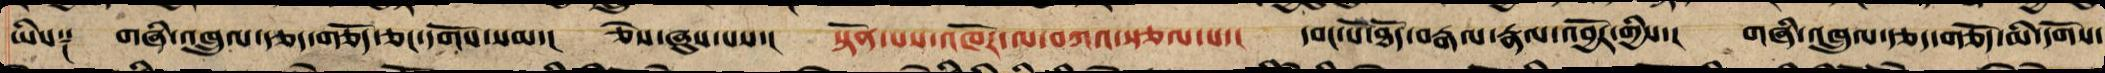ཡིས༑ གཞི་འཁྲུལ་རྩད་གཅོད་ཅང་དགོས་སམ་། ཅེས་ཞུས་པས་། སྟོན་པས་འཁོར་ལ་བཀའ་སྩལ་པ་། དབང་པོ་ཐོད་རྒལ་རྣལ་འབྱོར་གྱིས་། གཞི་འཁྲུལ་རྩད་གཅོད་མི་དགོས་
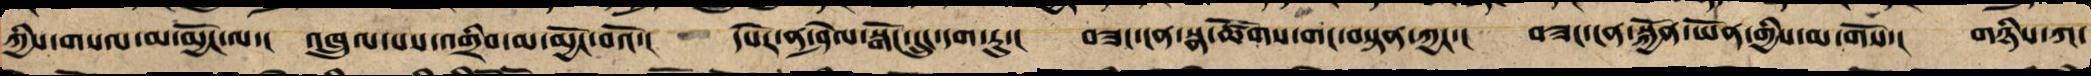ཀྱིས་གསལ་མ་མྱོང་ལ་། འཁྲུལ་པས་འགྲིབ་མ་མྱོང་བའོ་། དཔེར་ན་ཤེལ་སྒོང་དྲུང་དག་ཏུ་། བཟང་ངན་སྣ་ཚོགས་གང་བསྟན་ཀྱང་། བཟང་ངན་སྐྱོན་ཡོན་གྱིས་མ་གོས་། གཉིས་ཀ་
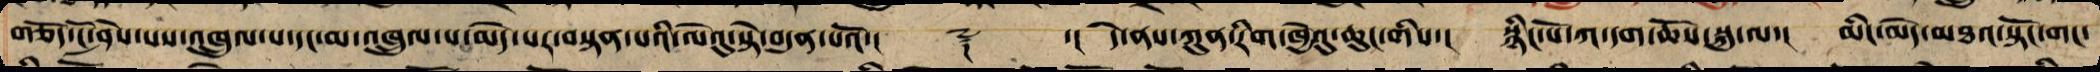གཅོད་ངོ་ཤེས་པས་འཁྲུལ་པ་དང་མ་འཁྲུལ་པ་མེད་པར་བསྟན་པའི་ལེའུ་སྟེ་བདུན་པའོ་།། ༈ ་།། དེ་ནས་ཀུན་རིག་ཁྱེའུ་ཆུང་གིས་། སྙིང་པོ་ཀ་དག་ཆོས་སྐུ་ལ་། མིང་མེད་མཐའ་སྟོང་གང་
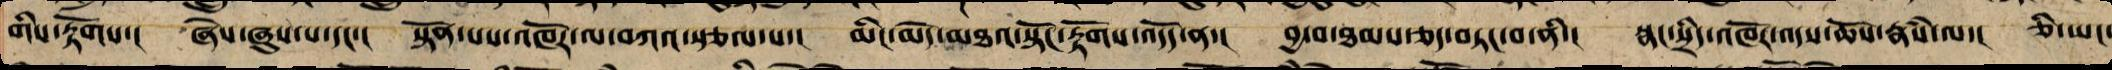གིས་རྟོགས་། ཞེས་ཞུས་པ་དང་་། སྟོན་པས་འཁོར་ལ་བཀའ་སྩལ་པ་། མིང་མེད་མཐའ་སྟོང་རྟོགས་འདོད་ན་། བྱ་བ་ཐམས་ཅད་བཏང་བ་ནི་། སྣང་སྲིད་འཁོར་འདས་ཆོས་རྣཾས་ལ་། ཅི་ཡང་
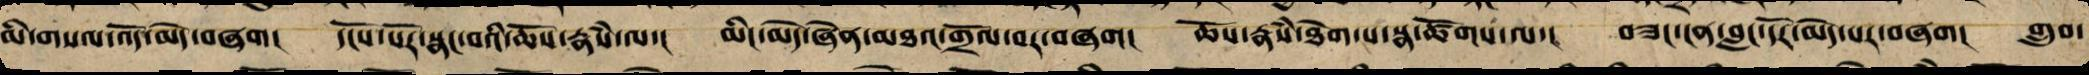མི་གསལ་འདོ་མེད་བཞག། དངོས་པོར་སྣང་བའི་ཆོས་རྣཾས་ལ་། མིང་མེད་ཞེན་མཐའ་གྲོལ་བར་བཞག། ཆོས་རྣཾས་ཐེག་པ་སྣ་ཚོགས་ལ་། བཟང་ངན་བླང་དོར་མེད་པར་བཞག། གྲུབ་
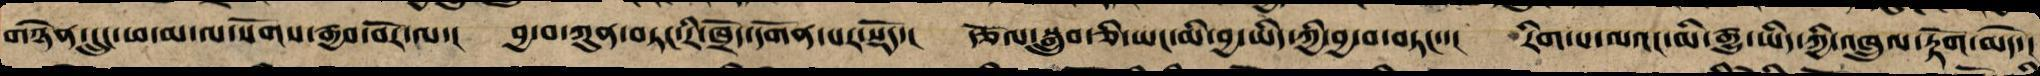གཉེན་དྲུང་ཕ་མ་ལ་སོགས་རྒྱབ་བོར་ལ་། བྱ་བ་ཀུན་བཏང་རི་ཁྲོད་དགོན་པར་སྡོད་། རྩོལ་བསྒྲུབ་ཅི་ཡང་མི་བྱ་ཡིད་ཀྱི་བྱ་བ་བཏང་་། རིག་པ་གང་ལའང་མི་རྒྱུ་ཡིད་ཀྱི་འཁྲུལ་རྟོག་མེད་།
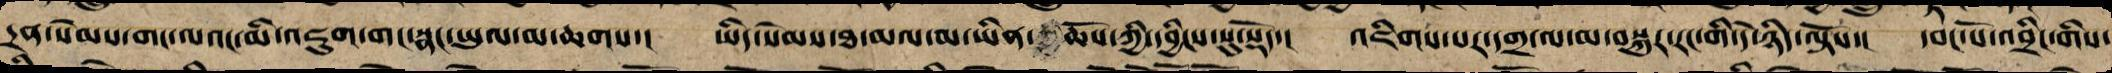དྲན་སེམས་གང་ལའང་མི་འཇུག་གང་སྣང་ཡུལ་མ་ཆགས་། ཡིད་སེམས་ཐ་མལ་མ་ཡིན་ཆོས་ཀྱི་དབྱིངས་སུ་སྡོད་། འཇིགས་སར་དགྲ་ལ་མ་བསྐུར་རང་གི་དེ་ཉིད་ལྟོས་། དབང་པོ་འབྲིང་གིས་
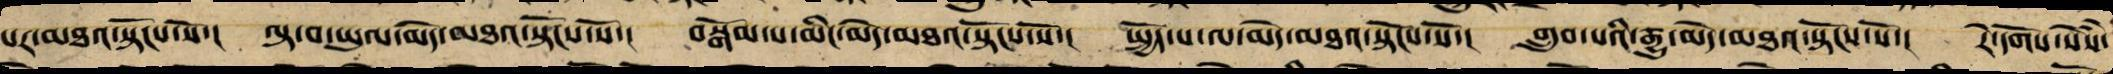པར་མཐའ་སྟོངས་སོ་། ལྟ་བ་ཡུལ་མེད་མཐའ་སྟོངས་སོ་། བསྒོམ་པ་མིང་མེད་མཐའ་སྟོངས་སོ་། སྤྱོད་པ་ལ་མེད་མཐའ་སྟོངས་སོ་། གྲུབ་པའི་རྒྱུ་མེད་མཐའ་སྟོངས་སོ་། རེ་དགོས་སེཾས་
